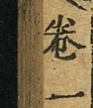卷一
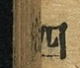四
